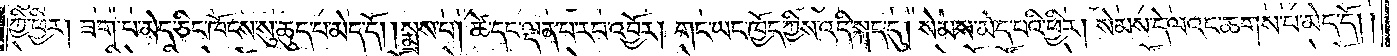ཀྱི་ཕྱིར། ཟག་པ་མེད་ཅིང་ཁོངས་སུ་ཆུད་པ་མེད་དོ། །སྨྲས་པ། ཚེ་དང་ལྡན་པ་རབ་འབྱོར། གང་ཡང་ཁྱོད་ཀྱིས་འདི་སྐད་དུ། སེམས་མེད་པའི་ཕྱིར། སེམས་དེ་ལའང་ཆགས་པ་མེད་དོ།
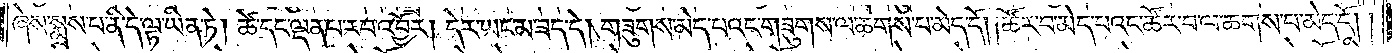ཞེས་སྨྲས་པ་ནི་དེ་ལྟ་ཡིན་ཏེ། ཚེ་དང་ལྡན་པ་རབ་འབྱོར། དེར་ཡང་མ་ཟད་དེ། གཟུགས་མེད་པའང་གཟུགས་ལ་ཆགས་པ་མེད་དོ། །ཚོར་བ་མེད་པའང་ཚོར་བ་ལ་ཆགས་པ་མེད་དོ། །
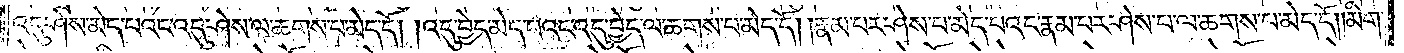འདུ་ཤེས་མེད་པའང་འདུ་ཤེས་ལ་ཆགས་པ་མེད་དོ། །འདུ་བྱེད་མེད་པའང་འདུ་བྱེད་ལ་ཆགས་པ་མེད་དོ། །རྣམ་པར་ཤེས་པ་མེད་པའང་རྣམ་པར་ཤེས་པ་ལ་ཆགས་པ་མེད་དོ། །མིག་
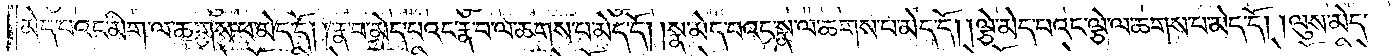མེད་པའང་མིག་ལ་ཆགས་པ་མེད་དོ། །རྣ་བ་མེད་པའང་རྣ་བ་ལ་ཆགས་པ་མེད་དོ། །སྣ་མེད་པའང་སྣ་ལ་ཆགས་པ་མེད་དོ། །ལྕེ་མེད་པའང་ལྕེ་ལ་ཆགས་པ་མེད་དོ། །ལུས་མེད་
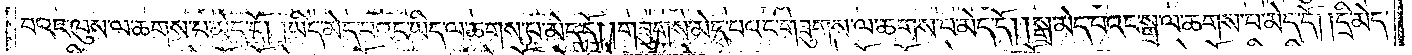པའང་ལུས་ལ་ཆགས་པ་མེད་དོ། །ཡིད་མེད་པའང་ཡིད་ལ་ཆགས་པ་མེད་དོ། །གཟུགས་མེད་པའང་གཟུགས་ལ་ཆགས་པ་མེད་དོ། །སྒྲ་མེད་པའང་སྒྲ་ལ་ཆགས་པ་མེད་དོ། །དྲི་མེད་
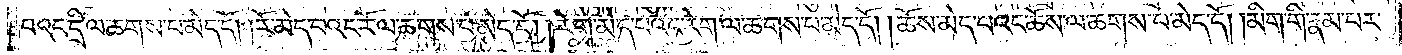པའང་དྲི་ལ་ཆགས་པ་མེད་དོ། །རོ་མེད་པའང་རོ་ལ་ཆགས་པ་མེད་དོ། །རེག་མེད་པའང་རེག་ལ་ཆགས་པ་མེད་དོ། །ཆོས་མེད་པའང་ཆོས་ལ་ཆགས་པ་མེད་དོ། །མིག་གི་རྣམ་པར་
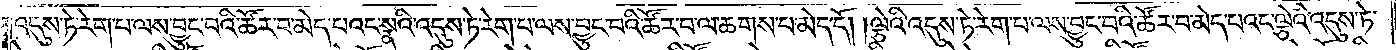འདུས་ཏེ་རེག་པ་ལས་བྱུང་བའི་ཚོར་བ་མེད་པའང་སྣའི་འདུས་ཏེ་རེག་པ་ལས་བྱུང་བའི་ཚོར་བ་ལ་ཆགས་པ་མེད་དོ། །ལྕེའི་འདུས་ཏེ་རེག་པ་ལས་བྱུང་བའི་ཚོར་བ་མེད་པའང་ལྕེའི་འདུས་ཏེ་
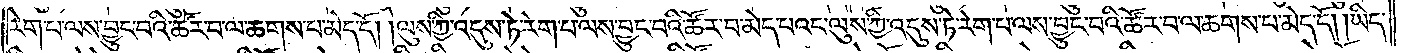རེག་པ་ལས་བྱུང་བའི་ཚོར་བ་ལ་ཆགས་པ་མེད་དོ། །ལུས་ཀྱི་འདུས་ཏེ་རེག་པ་ལས་བྱུང་བའི་ཚོར་བ་མེད་པའང་ལུས་ཀྱི་འདུས་ཏེ་རེག་པ་ལས་བྱུང་བའི་ཚོར་བ་ལ་ཆགས་པ་མེད་དོ། །ཡིད་
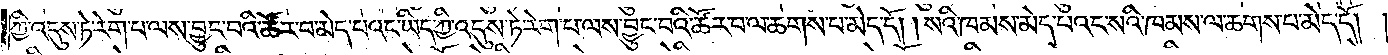ཀྱི་འདུས་ཏེ་རེག་པ་ལས་བྱུང་བའི་ཚོར་བ་མེད་པའང་ཡིད་ཀྱི་འདུས་ཏེ་རེག་པ་ལས་བྱུང་བའི་ཚོར་བ་ལ་ཆགས་པ་མེད་དོ། །སའི་ཁམས་མེད་པའང་སའི་ཁམས་ལ་ཆགས་པ་མེད་དོ། །
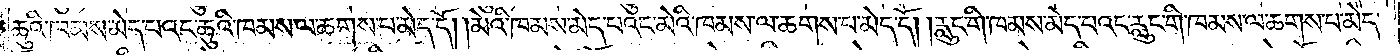ཆུའི་ཁམས་མེད་པའང་ཆུའི་ཁམས་ལ་ཆགས་པ་མེད་དོ། །མེའི་ཁམས་མེད་པའང་མེའི་ཁམས་ལ་ཆགས་པ་མེད་དོ། །རླུང་གི་ཁམས་མེད་པའང་རླུང་གི་ཁམས་ལ་ཆགས་པ་མེད་
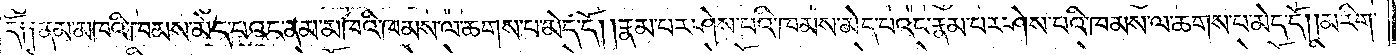དོ༑ ༑ནམ་མཁའི་ཁམས་མེད་པའང་ནམ་མཁའི་ཁམས་ལ་ཆགས་པ་མེད་དོ། །རྣམ་པར་ཤེས་པའི་ཁམས་མེད་པའང་རྣམ་པར་ཤེས་པའི་ཁམས་ལ་ཆགས་པ་མེད་དོ། །མ་རིག་
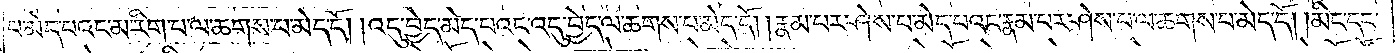པ་མེད་པའང་མ་རིག་པ་ལ་ཆགས་པ་མེད་དོ། །འདུ་བྱེད་མེད་པའང་འདུ་བྱེད་ལ་ཆགས་པ་མེད་དོ། །རྣམ་པར་ཤེས་པ་མེད་པའང་རྣམ་པར་ཤེས་པ་ལ་ཆགས་པ་མེད་དོ། །མིང་དང་
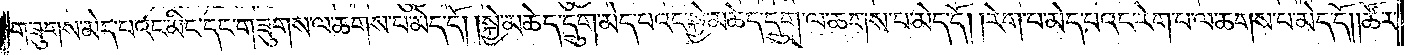གཟུགས་མེད་པའང་མིང་དང་གཟུགས་ལ་ཆགས་པ་མེད་དོ། །སྐྱེ་མཆེད་དྲུག་མེད་པའང་སྐྱེ་མཆེད་དྲུག་ལ་ཆགས་པ་མེད་དོ། །རེག་པ་མེད་པའང་རེག་པ་ལ་ཆགས་པ་མེད་དོ། །ཚོར་
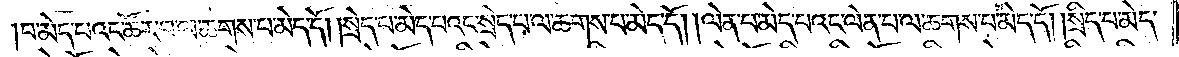བ་མེད་པའང་ཚོར་བ་ལ་ཆགས་པ་མེད་དོ། །སྲེད་པ་མེད་པའང་སྲེད་པ་ལ་ཆགས་པ་མེད་དོ། །ལེན་པ་མེད་པའང་ལེན་པ་ལ་ཆགས་པ་མེད་དོ། །སྲིད་པ་མེད་
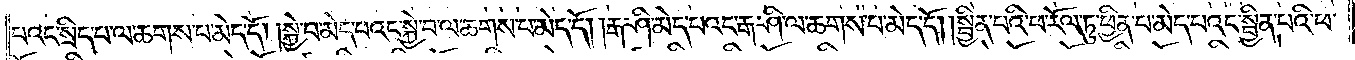པའང་སྲིད་པ་ལ་ཆགས་པ་མེད་དོ། །སྐྱེ་བ་མེད་པའང་སྐྱེ་བ་ལ་ཆགས་པ་མེད་དོ། །རྒ་ཤི་མེད་པའང་རྒ་ཤི་ལ་ཆགས་པ་མེད་དོ། །སྦྱིན་པའི་ཕ་རོལ་ཏུ་ཕྱིན་པ་མེད་པའང་སྦྱིན་པའི་ཕ་
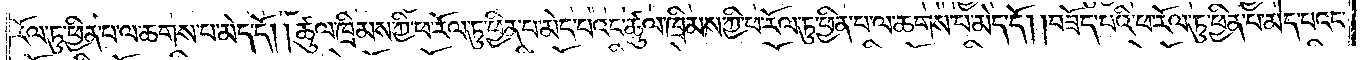རོལ་ཏུ་ཕྱིན་པ་ལ་ཆགས་པ་མེད་དོ། །ཚུལ་ཁྲིམས་ཀྱི་ཕ་རོལ་ཏུ་ཕྱིན་པ་མེད་པའང་ཚུལ་ཁྲིམས་ཀྱི་ཕ་རོལ་ཏུ་ཕྱིན་པ་ལ་ཆགས་པ་མེད་དོ། །བཟོད་པའི་ཕ་རོལ་ཏུ་ཕྱིན་པ་མེད་པའང་
